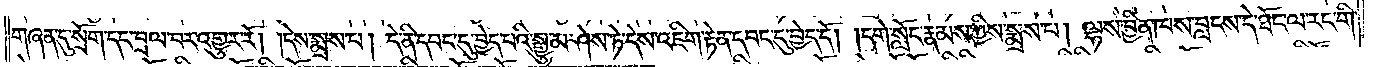གཞན་དུ་སྲོག་དང་བྲལ་བར་འགྱུར་རོ། །དེས་སྨྲས་པ། དེ་ནི་དབང་དུ་བྱེད་པའི་སྒྱུ་མ་ཤེས་ཏེ་དེས་འཇིག་རྟེན་དབང་དུ་བྱེད་དོ། །དགེ་སློང་རྣམས་ཀྱིས་སྨྲས་པ། ལྷས་བྱིན་ཁས་བླངས་དེ་ཐོང་ལ་རང་གི་
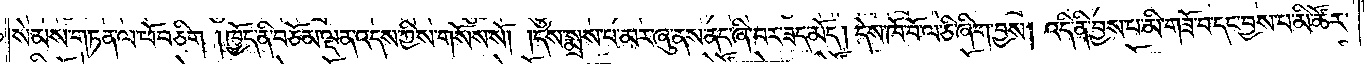སེམས་གཏན་ལ་ཕོབ་ཅིག །ཁྱོད་ནི་བཅོམ་ལྡན་འདས་ཀྱིས་གསོས་སོ། །དེས་སྨྲས་པ་མར་ཞུ་ནས་ནང་ཞི་བར་ཟད་མོད། དེས་ཁོ་བོ་ལ་ཅི་ཞིག་བྱས། འདི་ནི་བྱས་པ་མི་གཟོ་བ་དང་བྱས་པ་མི་ཚོར་
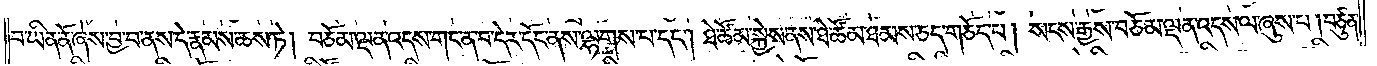བ་ཡིན་ནོ་ཞེས་བྱ་བ་ནས་དེ་རྣམས་ཆས་ཏེ། བཅོམ་ལྡན་འདས་གང་ན་བ་དེར་དོང་ནས་ལྷགས་པ་དང༌། ཐེ་ཚོམ་སྐྱེས་ནས་ཐེ་ཚོམ་ཐམས་ཅད་གཅོད་པ། སངས་རྒྱས་བཅོམ་ལྡན་འདས་ལ་ཞུས་པ། བཙུན་
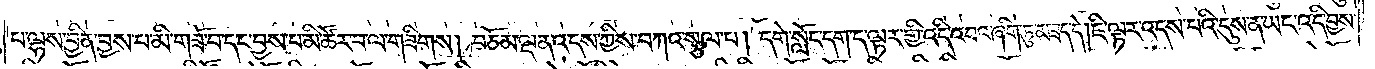པ་ལྷས་བྱིན་བྱས་པ་མི་གཟོ་བ་དང་བྱས་པ་མི་ཚོར་བ་ལ་གཟིགས། བཅོམ་ལྡན་འདས་ཀྱིས་བཀའ་སྩལ་པ། དགེ་སློང་དག་ད་ལྟར་གྱི་འདི་འབའ་ཞིག་ཏུ་མ་ཟད་དེ། ཇི་ལྟར་འདས་པའི་དུས་ན་ཡང་འདི་བྱས་
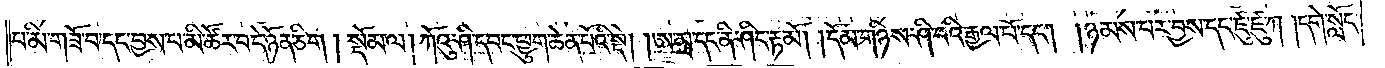པ་མི་གཟོ་བ་དང་བྱས་པ་མི་ཚོར་བ་དེ་ཉོན་ཅིག    །སྡོམ་ལ། ཀོའུ་ཤི་དབང་ཕྱུག་ཆེན་པོའི་སྡེ། །ཨ་མྲ་དང་ནི་ཤིང་རྟ་མོ། །དོམ་གཉིས་ཤི་བའི་རྒྱལ་པོ་དང༌། །ཉམས་པར་བྱས་དང་ཛུ་ཛུ་ཀ། དགེ་སློང་
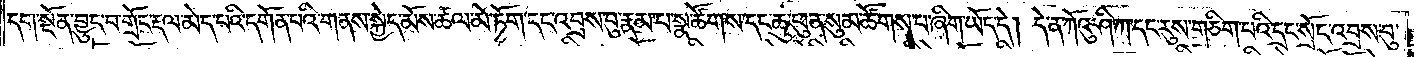དག་སྔོན་བྱུང་བ་གྲོང་རྡལ་མེད་པའི་དགོན་པའི་གནས་སྐྱེད་མོས་ཚལ་མེ་ཏོག་དང་འབྲས་བུ་རྣམ་པ་སྣ་ཚོགས་དང་ཆུ་ཕུན་སུམ་ཚོགས་པ་ཞིག་ཡོད་དེ། དེ་ན་ཀོའུ་ཤི་ཀ་དང་རུས་གཅིག་པའི་དྲང་སྲོང་འབྲས་བུ་
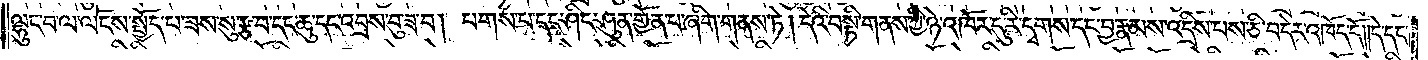ལྷུང་བ་ལ་ལོངས་སྤྱོད་པ་ཟས་སུ་རྩ་བ་དང་ཆུ་དང་འབྲས་བུ་ཟ་བ། པགས་པ་དང་ཤིང་ཤུན་གྱོན་པ་ཞིག་གནས་ཏེ། དེའི་བསྟི་གནས་ཀྱི་ཉེ་འཁོར་དུ་རི་དྭགས་དང་བྱ་རྣམས་འདྲིས་པས་ཅི་བདེར་འཁོད་དོ། །དེ་དང་
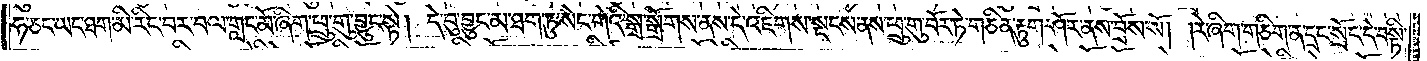ཧ་ཅང་ཡང་ཐག་མི་རིང་བར་བལ་གླང་མོ་ཞིག་ཕྲུ་གུ་བྱུང་སྟེ། དེ་བུ་བྱུང་མ་ཐག་ཏུ་སེང་གེའི་སྒྲ་སྒྲོགས་ནས་དེ་འཇིགས་སྡངས་ནས་ཕྲུ་གུ་བོར་ཏེ་གཅིན་རྟུག་ཤོར་ནས་བྲོས་སོ། །རེ་ཞིག་གཅིག་ན་དྲང་སྲོང་དེ་བསྟི་
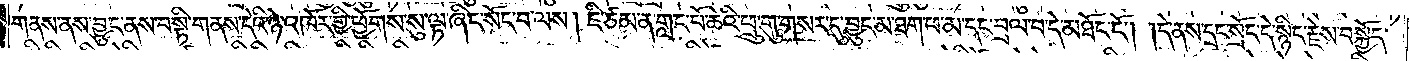གནས་ནས་བྱུང་ནས་བསྟི་གནས་དེའི་ཉེ་འཁོར་གྱི་ཕྱོགས་སུ་ལྟ་ཞིང་སོང་བ་ལས། ཇི་ཙམ་ན་གླང་པོ་ཆེའི་ཕྲུ་གུ་གསར་དུ་བྱུང་མ་ཐག་ཕ་མ་དང་བྲལ་བ་དེ་མཐོང་ངོ༌། །དེ་ནས་དྲང་སྲོང་དེ་སྙིང་རྗེས་བསྐྱོད་
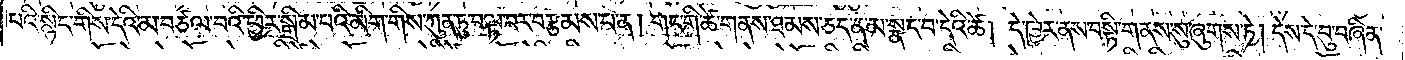པའི་སྙིང་གིས་དེའི་མ་བཙལ་བའི་ཕྱིར་སྒྲིམ་པའི་མིག་གིས་ཀུན་ཏུ་བལྟ་བར་བརྩམས་པ་ན། གང་གི་ཚེ་གནས་ཐམས་ཅད་ན་མ་སྣང་བ་དེའི་ཚེ། དེ་ཁྱེར་ནས་བསྟི་གནས་སུ་ཞུགས་ཏེ། དེས་དེ་བུ་བཞིན་
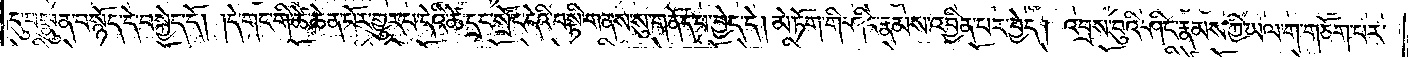དུ་བསྣུན་བསྙོད་དེ་བསྐྱེད་དོ། །དེ་གང་གི་ཚེ་ཆེན་པོར་གྱུར་པ་དེའི་ཚེ་དྲང་སྲོང་དེའི་བསྟི་གནས་སུ་གནོད་པ་བྱེད་དེ། མེ་ཏོག་གི་ཤིང་རྣམས་འབྱིན་པར་བྱེད། འབྲས་བུའི་ཤིང་རྣམས་ཀྱི་ཡལ་ག་གཅོག་པར་
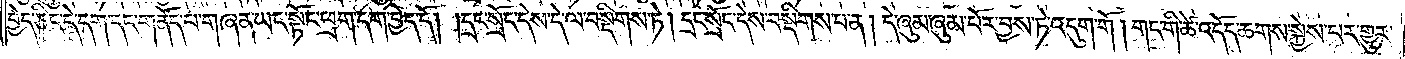བྱེད་ཅིང་དེ་དག་དང་གནོད་པ་གཞན་ཡང་སྟོང་ཕྲག་དག་བྱེད་དོ། །དྲང་སྲོང་དེས་དེ་ལ་བསྡིགས་ཏེ། དྲང་སྲོང་དེས་བསྡིགས་པ་ན། དེ་ཞུམ་ཞུམ་པོར་བྱས་ཏེ་འདུག་གོ །གང་གི་ཚེ་འདོད་ཆགས་སྐྱེས་པར་གྱུར་
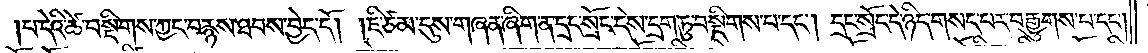།པ་དེའི་ཚེ་བསྡིགས་ཀྱང་བརྙས་ཐབས་བྱེད་དོ། །ཇི་ཙམ་དུས་གཞན་ཞིག་ན་དྲང་སྲོང་དེས་དྲག་ཏུ་བསྡིགས་པ་དང༌། དྲང་སྲོང་དེ་ཉིད་གསད་པར་བརྒྱུགས་པ་དང༌།
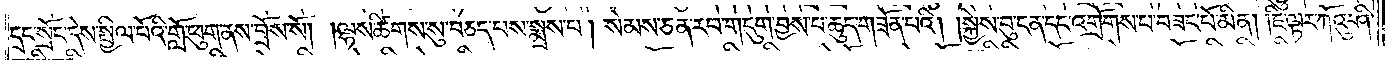དྲང་སྲོང་དེས་སྤྱིལ་བོའི་གློ་ཕུག་ནས་བྲོས་སོ། །ལྷས་ཚིགས་སུ་བཅད་པས་སྨྲས་པ། སེམས་ཅན་རབ་གདུག་བྱས་པ་ཆུད་གཟོན་པའི། །སྐྱེས་བུ་ངན་དང་འགྲོགས་པ་བཟང་པོ་མིན། །ཇི་ལྟར་ཀོའུ་ཤི་
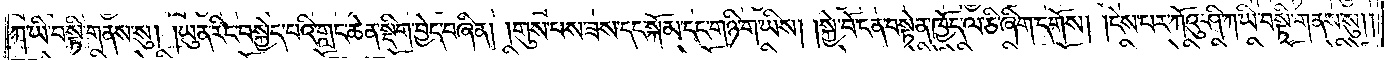ཀ་ཡི་བསྟི་གནས་སུ། །ཡུན་རིང་བསྐྱེད་པའི་གླང་ཆེན་སྡིག་བྱེད་བཞིན། །གུས་པས་ཟས་དང་སྐོམ་དང་གཉི་ག་ཡིས། །སྐྱེ་བོ་ངན་བསྟེན་ཁྱོད་ལ་ཅི་ཞིག་དགོས། །ངེས་པར་ཀོའུ་ཤི་ཀ་ཡི་བསྟི་གནས་སུ༎
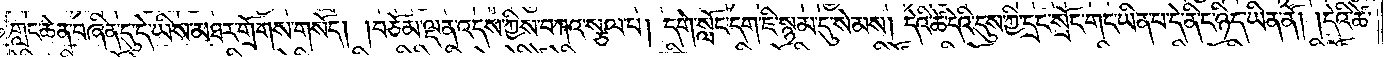གླང་ཆེན་བཞིན་དུ་དེ་ཡིས་མཐར་གྲོགས་གསོད། །བཅོམ་ལྡན་འདས་ཀྱིས་བཀའ་སྩལ་པ། དགེ་སློང་དག་ཇི་སྙམ་དུ་སེམས། དེའི་ཚེ་དེའི་དུས་ཀྱི་དྲང་སྲོང་གང་ཡིན་པ་དེ་ནི་ང་ཉིད་ཡིན་ནོ། །དེའི་ཚེ་
